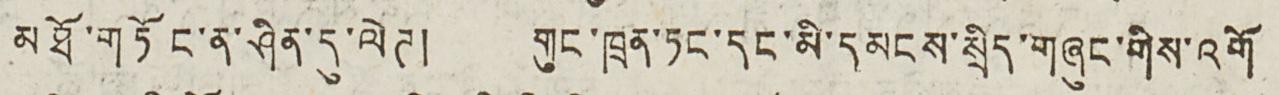མཐོ་གཏོང་ན་ཤིན་དུ་ལེཊ། གུང་ཁྲན་ཏང་དང་མི་དམངས་སྲིད་གཞུང་གིས་འགོ
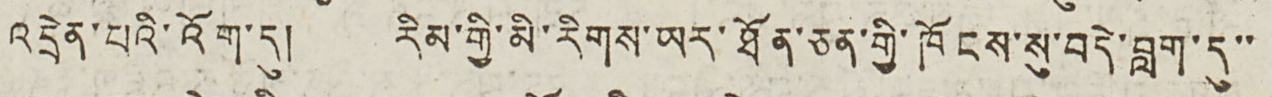འདྲེན་པའི་འོག་དུ། རིམ་གྱི་མི་རིགས་ཡར་ཐོན་ཅན་གྱི་ཁོངས་སུ་བདེ་བླག་དུ་་
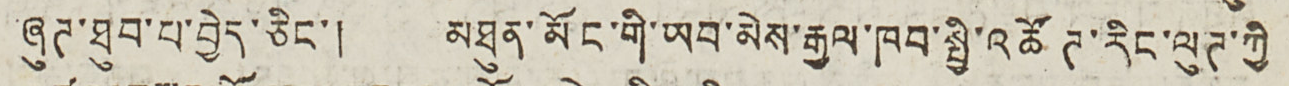ཞུཊ་ཐུབ་པ་བྱེད་ཅིང་། མཐུན་མོང་གི་ཡབ་མེས་རྒྱལ་ཁབ་སྤྱི་འཚོཊ་རིང་ལུཊ་ཀྱི
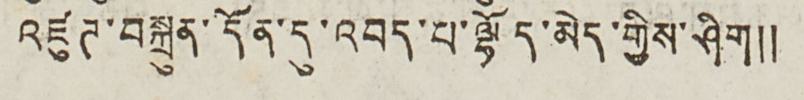འཛུཊ་བསྐྲུན་དོན་དུ་འབད་པ་ལྷོད་མེད་གྱིས་ཤིག༎
